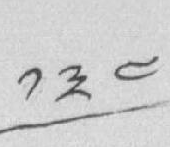༡༣༤
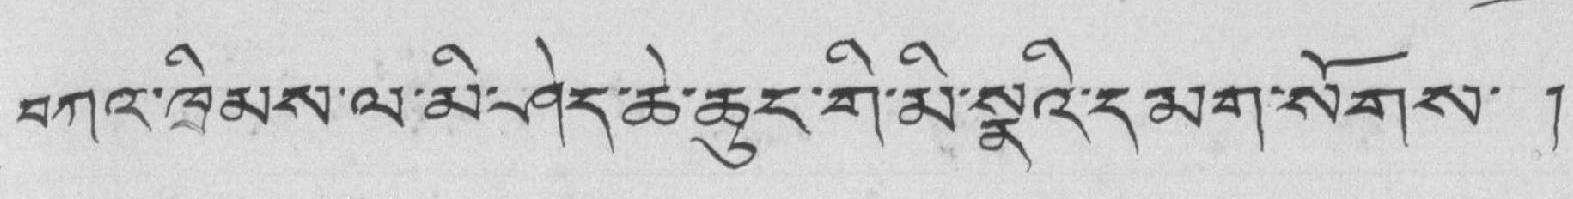བཀའ་ཁྲིམས་ལ་མི་ཤེད་ཆེ་ཆུང་གི་མི་སྣའི་དམག་སོགས་ །
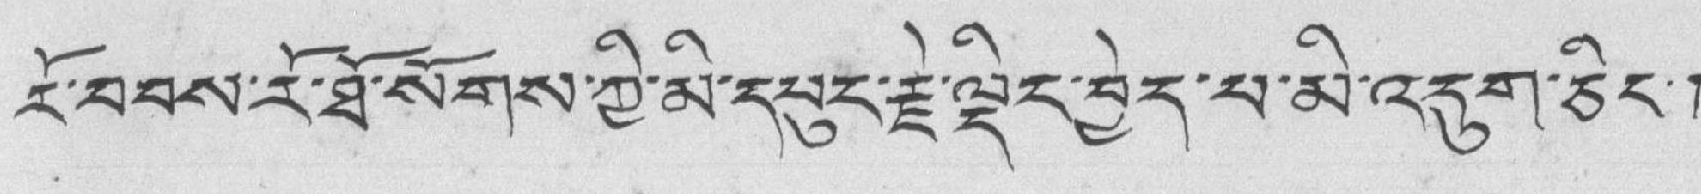རོ་བབས་རོ་ཐོ་སོགས་ཀྱི་མི་དཔུང་རྗེ་ལྡིང་བྱེད་པ་མི་འདུག་ཅིང་།
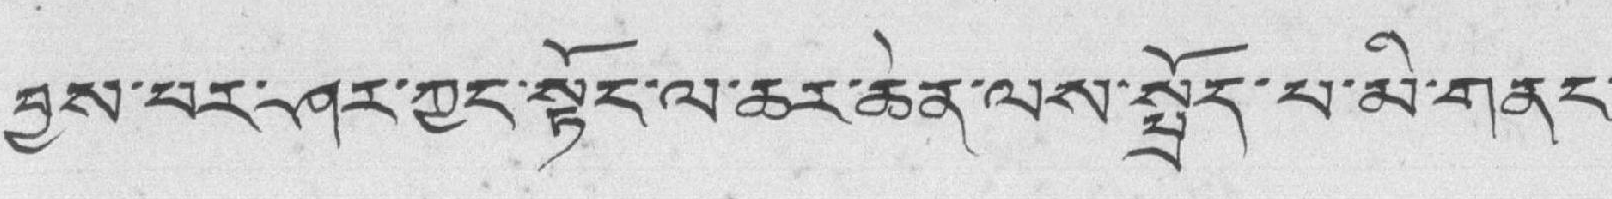བྱས་པར་ཤར་ཀྱང་སྟོང་ལ་ཆར་ཆེན་ལས་སྤྲོད་པ་མི་གནང་
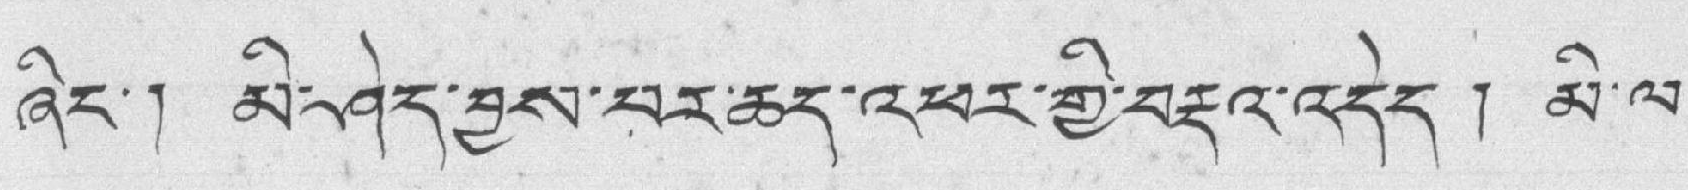ཞིང་། མི་ཤེད་བྱས་པར་ཆད་འཕར་གྱི་བརྡའ་འདེད ། མི་ལ་
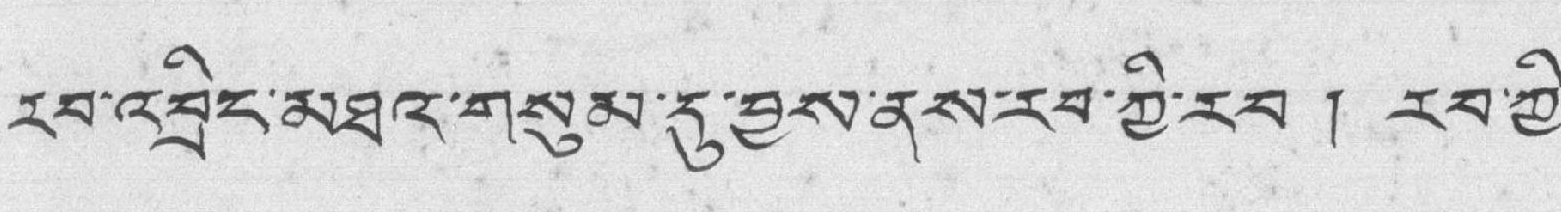རབ་འབྲིང་མཐའ་གསུམ་དུ་བྱས་ནས་རབ་ཀྱི་རབ ། རབ་ཀྱི་
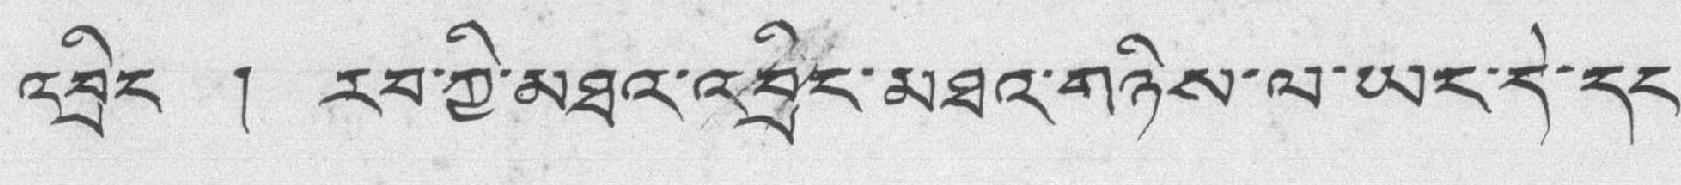འབྲིང ། རབ་ཀྱི་མཐའ་འབྲིང་མཐའ་གཉིས་ལ་ཡང་དེ་དང་
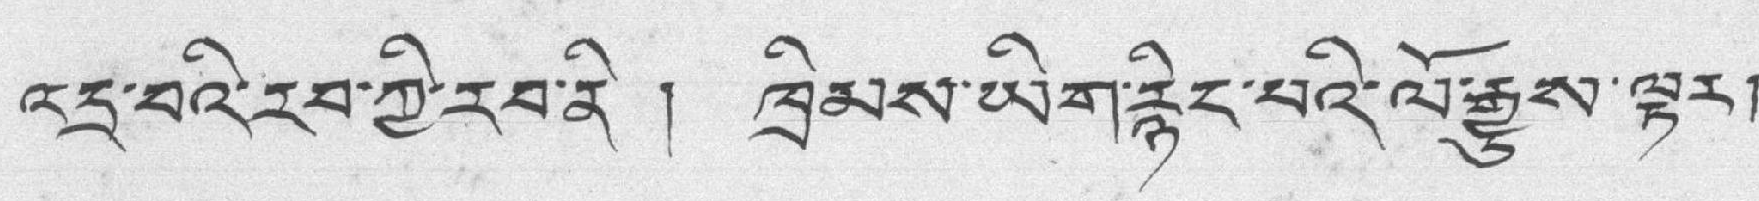འདྲ་བའི་རབ་ཀྱི་རབ་ནི ། ཁྲིམས་ཡིག་རྙིང་པའི་ལོ་རྒྱུས་ལྟར།
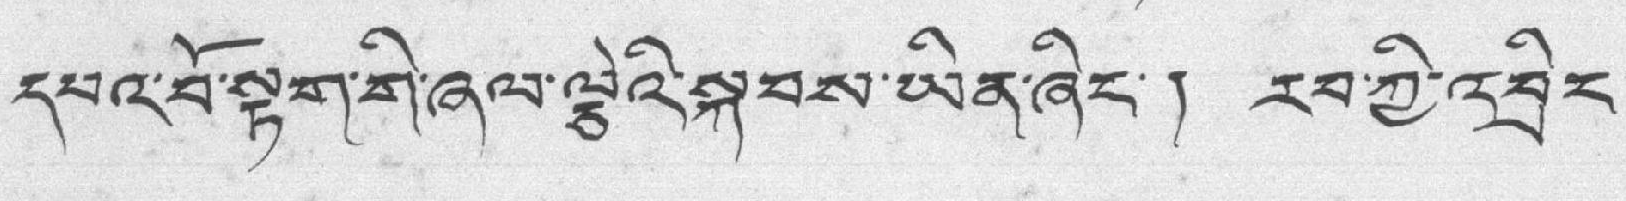དཔའ་བོ་སྟག་གི་ཞལ་ལྕེའི་སྐབས་ཡིན་ཞིང་། རབ་ཀྱི་འབྲིང་
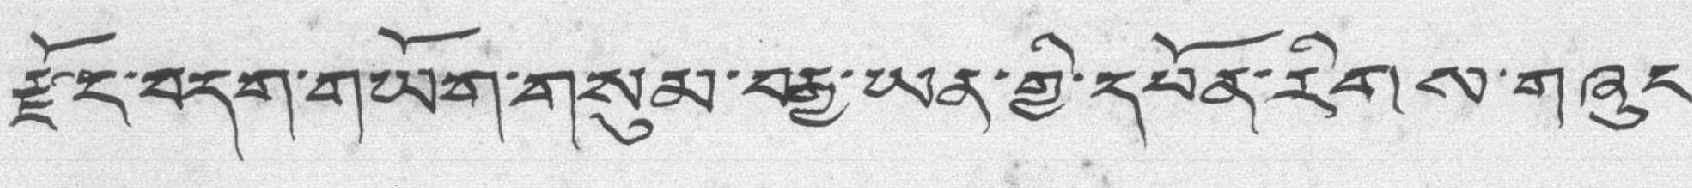རྫོང་བདག་གཡོག་གསུམ་བརྒྱ་ཡིན་གྱི་དཔོན་རིགས་གཞུང་
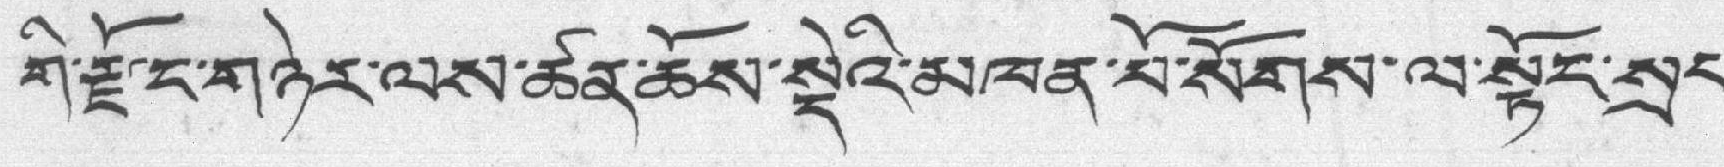གི་རྫོང་གཉེར་ལས་ཚན་ཆོས་སྡེའི་མཁན་པོ་སོགས་ལ་སྟོང་སྲང་
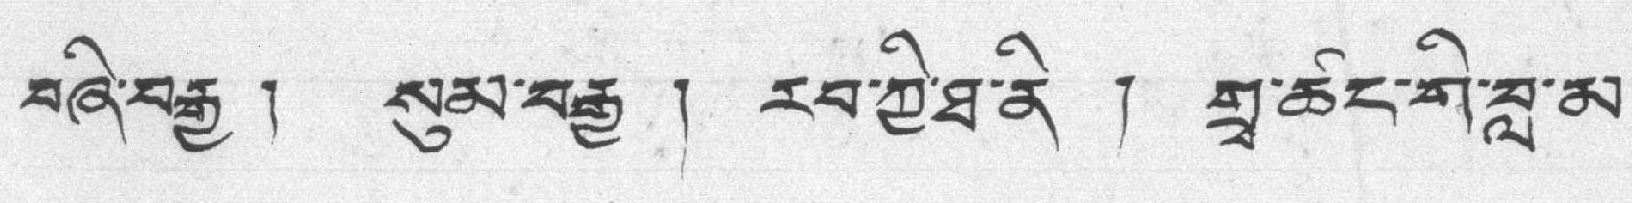བཞི་བརྒྱ ། སུམ་བརྒྱ ། རབ་ཀྱི་ཐ་ནི ། གྲྭ་ཚང་གི་བླ་མ་
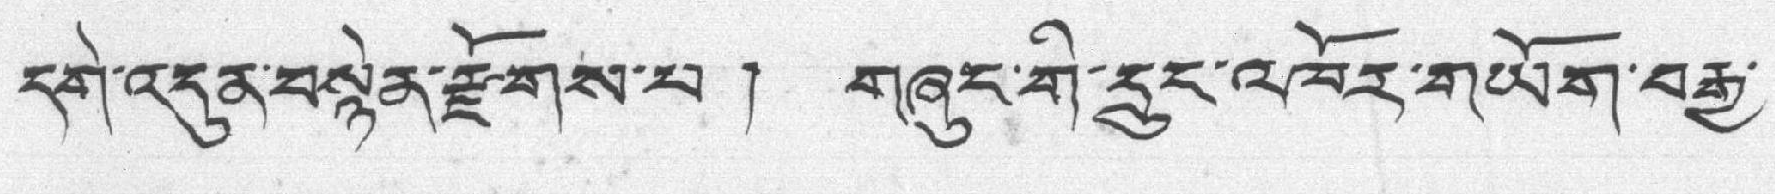དགེ་འདུན་བསྙེན་རྫོགས་པ ། གཞུང་གི་དྲུང་འཁོར་གཡོག་བརྒྱ་
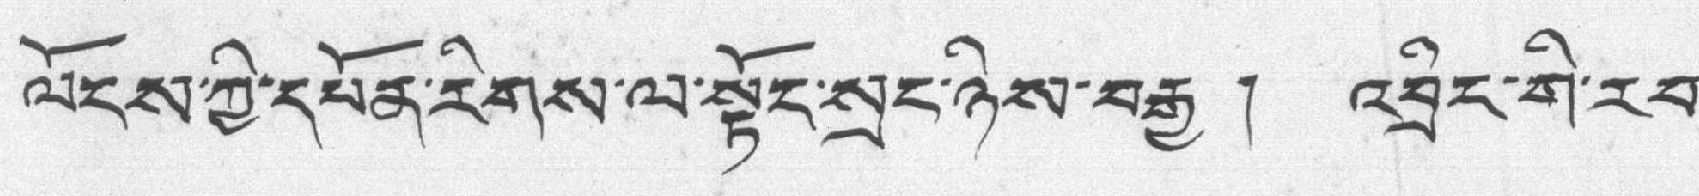ལོངས་ཀྱི་དཔོན་རིགས་ལ་སྟོང་སྲང་ཉིས་བརྒྱ ། འབྲིང་གི་རབ་
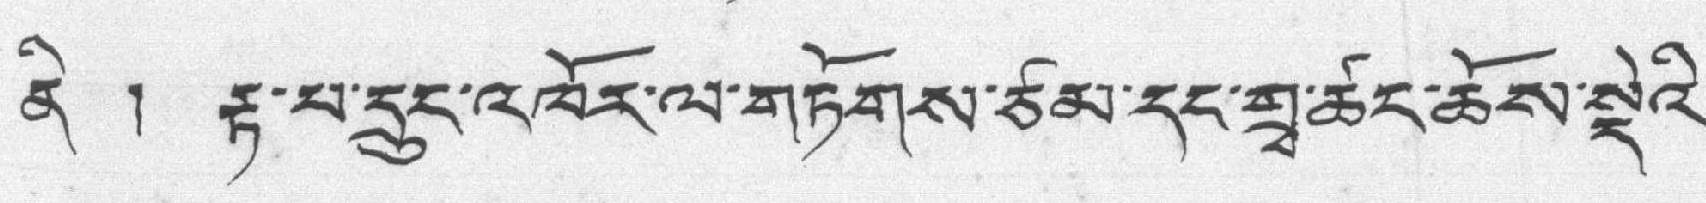ནི ། རྟ་པ་དྲུང་འཁོར་ལ་གཏོགས་ཙམ་དང་གྲྭ་ཚང་ཆོས་སྡེའི་
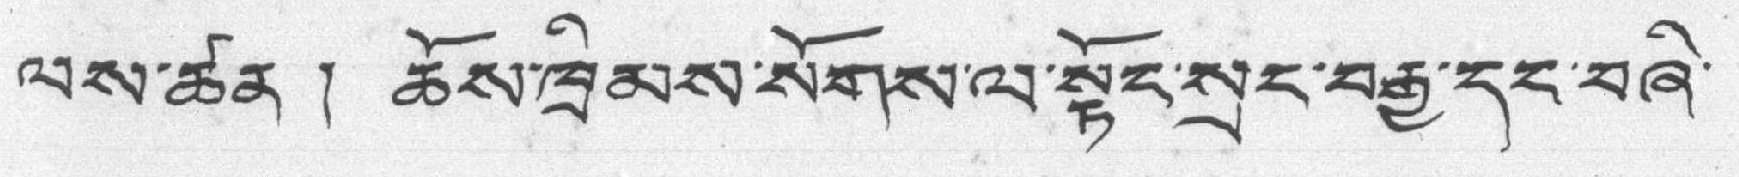ལས་ཚན ། ཆོས་ཁྲིམས་སོགས་ལ་སྟོང་སྲང་བརྒྱ་དང་བཞི་
